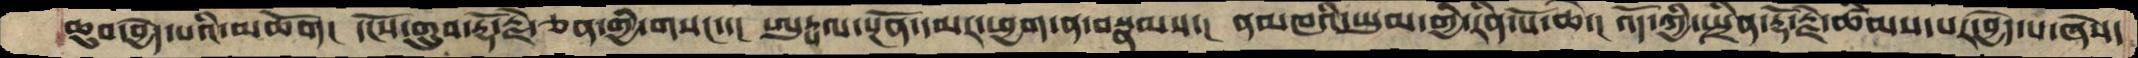ཆུབ་བྱེད་པའི་མཆོག།  དངོས་གྲུབ་རྡོ་རྗེ་ཅན་གྱི་གསང་་།  ཨཏྤལ་སྔོན་དམར་ཕྱག་ན་བསྣམས་།  ནམཁའི་ཡུམ་གྱི་རིན་པོ་ཆེ་།  འོད་ཀྱི་སྤྲིན་རྡོ་རྗེ་ཚིམས་པར་བྱེད་པ་ཞེས་
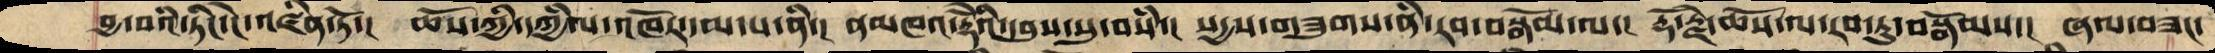བྱ་བའི་ཏི་ངེ་འཛིན་ཏོ་།  ཆོས་ཀྱི་དཀྱིལ་འཁོར་དམ་པ་ནི་།  ནམཁའ་རྡོེའི་དབུས་སུ་བསཾ་།  སདྱས་གཟུགས་ནི་རབ་བསྒོམ་ལ་།  རྡོ་རྗེ་ཆོས་ལ་རབ་ཏུ་བསྒོམས་།  ཞལ་བཟང་
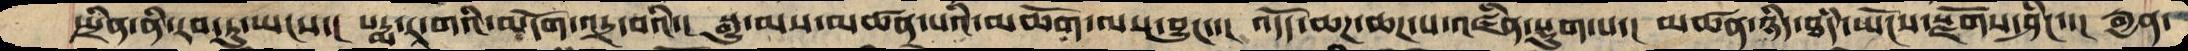སྤྲིན་ནི་རབ་ཏུ་ཡངས་།  པདྨ་རཱ་གའི་མདོག་འདྲ་བའི་།  སྒྱུ་མས་མཚན་པའི་མཆོག་ལས་བྱུང་་།  འདོད་ཆཌ་ཆཌ་པ་འཛིན་སྡུག་པ་།  མཚན་ཉིད་ཐཾད་ཡོངས་སྫོགས་ཤིང་་།  རྒྱན་
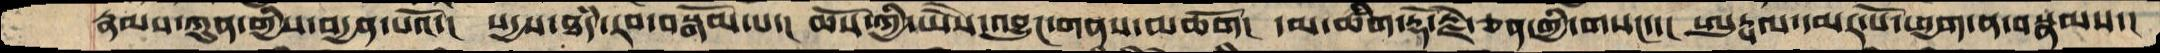རྣམས་ཀུན་གྱིས་བདྱན་པའོ་།  སདྱས་ཐཾད་རབ་བསྒོམ་པ་།  ཆོས་ཀྱི་ཡཻས་འབྱུང་གནས་མཆོག།  དམ་ཚིག་རྡོ་རྗེ་ཅན་གྱི་གསང་་།  ཨུཏྤལ་དམར་པོ་ཕྱག་ན་བསྣམས་།
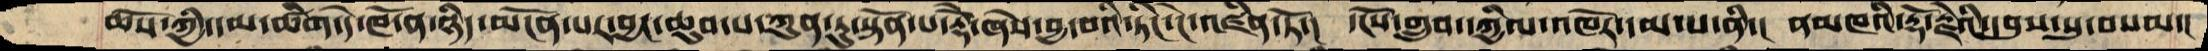ཆོས་ཀྱི་དམ་ཚིག་དེ་ཁོ་ན་ཉིད་མངོན་པར་བྱང་ཆུབ་པ་ཀུན་ཏུ་སྟོན་པ་རྡོེ་ཞེས་བྱ་བའི་ཏིང་ངེ་འཛིན་ཏོ་།  དངོས་གྲུབ་དཀྱིལ་འཁོར་དམ་པ་ནི་།  ནམཁའི་རྡོ་རྗེའི་དབུས་སུ་བསམ་།
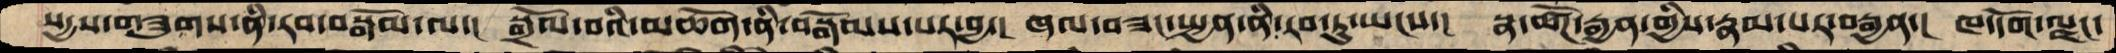སདྱས་གཟུགས་ནི་རབ་བསྒོམ་ལ་།  སྒྲོལ་བའི་མཆོག་ནི་བསྒོམས་པར་བྱ་།  ཞལ་བཟང་སྤྱན་ནི་རབ་ཏུ་ཡངས་།  སྣ་ཚོཌ་རྒྱན་གྱིས་རྣམ་པར་བརྒྱན་།  ཁ་དོག་ལྗང་
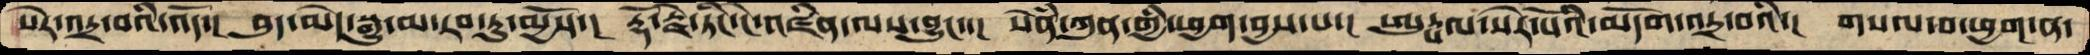སེར་འདྲ་བའི་འོད་།  བུད་མེད་སྒྱུ་མ་རབ་ཏུ་མྱོས་།  རྡོ་རྗེ་ཏིང་ངེ་འཛིན་ལས་བྱུང་་།  སེཾན་ཀུན་གྱི་ཕྱག་བྱས་པ་།  ཨུཏྤལ་སེར་པོའི་མདོག་འདྲ་བའི་།  གསལ་བ་ཕྱག་ན་
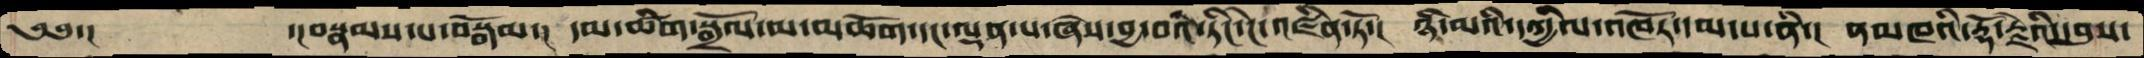༄༅་།      ་།བསྣམས་པ་བསྒོམ་།  དམ་ཚིག་སྒྲོལ་མ་མཆོག་དང་ལྡན་པ་ཞེས་བྱ་བའི་ཏིང་ངེ་འཛིན་ཏོ་།  ཉི་མའི་དཀྱིལ་འཁོར་དམ་པ་ནི་།  ནམཁའི་རྡོ་རྗེའི་དབུས་
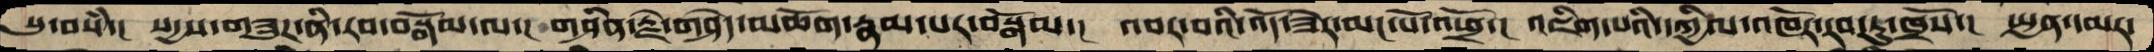སུ་བསཾ་།  སདྱས་གཟུཌ་ནི་རབ་བསྒོམ་ལ་།  གཤིན་རྗེ་གཤེད་མཆོག་རྣམ་པར་བསྒོམས་།  འབར་བའི་འོད་ཟེར་མང་པོ་འཕྲོ་།  འཛིན་པའི་དཀྱིལ་འཁོར་རབ་ཏུ་ཁྲོས་།  སྤྱན་དམར་
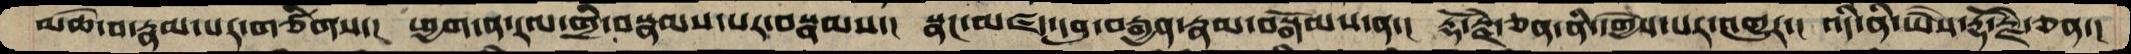མཆེ་བ་རྣམ་པར་གཙིགས་།  ཕྱག་ན་རལ་གྲི་བསྣམས་པར་བསྣམས་།  སྣང་མཛད་དབུ་བརྒྱན་རྣམ་བསྒོམས་ན་།  རྡོ་རྗེ་ཅན་ནི་དགྱེས་པར་འགྱུར་།  འདི་ནི་ཡཻས་རྡོ་རྗེ་ཅན་།
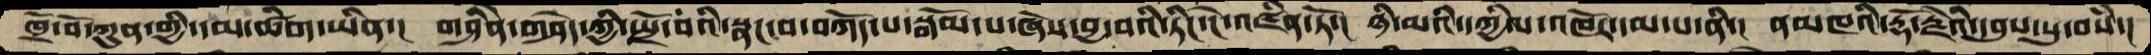ཁྲོ་བོ་ཀུན་གྱི་དམ་ཚིག་ཡིན་།  གཤིེན་གཤེད་ཀྱི་སྤྲོ་བའི་སྣང་བ་བཀོད་པ་སྒོམ་པ་ཞེས་བྱ་བའི་ཏིང་ངེ་འཛིན་ཏོ་།  ཉི་མའི་དཀྱིལ་འཁོར་དམ་པ་ནི་།  ནམཁའི་རྡོ་རྗེའི་དབུས་སུ་བསཾ་།
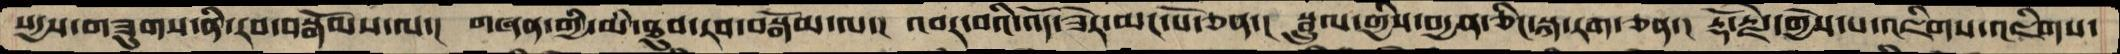སདྱས་གཟུགས་ནི་རབ་བསྒོམས་ལ་།  གཞན་གྱི་མི་ཐུབ་རབ་བསྒོམ་ལ་།  འབར་བའི་འོད་ཟེར་མང་པོ་ཅན་།  སྦྲུལ་གྱིས་བདྱན་ཅིང་སྐ་རག་ཅན་།  རྡོ་རྗེ་དགྱེས་པ་འཇིགས་འཇིགས་
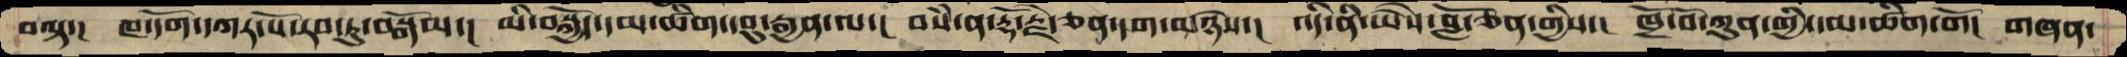བལྟ་།  ཁ་དོག་དཀར་པོ་རབ་ཏུ་བསྒོམ་། མི་བསྐྱོད་དམ་ཚིག་དབུ་རྒྱན་ལ་། བསཾ་ན་རྡོ་རྗེ་ཅན་དག་མཉེས་།  འདི་ནི་ཡཻས་བློ་ཅན་གྱིས་། ཁྲོ་བོ་ཀུན་གྱི་དམ་ཚིག་གོ། གཞན་
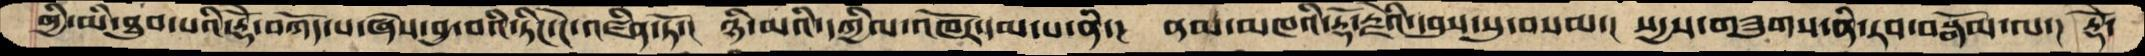གྱི་མི་ཐུབ་པའི་རྡོེ་བཀོད་པ་ཞེས་བྱ་བའི་ཏིང་ངེ་འཛིན་ཏོ་། ཉི་མའི་དཀྱིལ་འཁོར་དམ་པ་ནི་།  ནམ་མཁའི་རྡོ་རྗེའི་དབུས་སུ་བསམ་། སདྱས་གཟུགས་ནི་རབ་བསྒོམ་ལ་། རྡོེ་
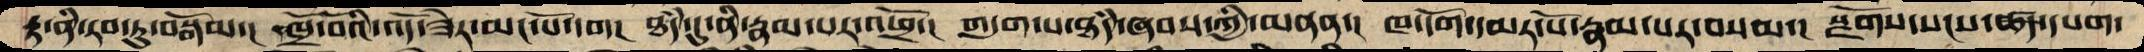རྟ་ནི་རབ་ཏུ་བསྒོམ་། ཁྲོ་བོའི་འོད་ཟེར་མང་པོ་དག། ཐཾད་དུ་ནི་རྣམ་པར་འཕྲོ་། གདུག་པ་ཐཾད་ཞབས་ཀྱི་མནན་། ཁ་དོག་དམར་པོ་རྣམ་པར་བསམ་། སྫོགས་སངས་ཚད་དཔག་
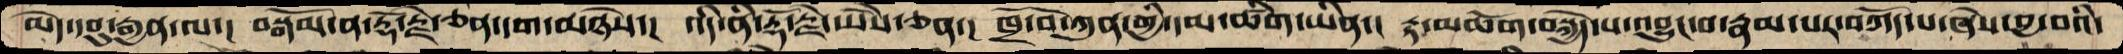མེད་དབུ་རྒྱན་ལ་། བསྒོམ་ན་རྡོ་རྗེ་ཅན་དག་མཉེས་། འདི་ནི་རྡོ་རྗེ་ཡཻས་ཅན་། ཁྲོ་བོ་ཀུན་གྱི་དམ་ཚིག་ཡིན་། རྟ་མཆོག་བསྐྱེད་པ་འབྱུང་བ་རྣམ་པར་བཀོད་པ་ཞེས་བྱ་བའི་
